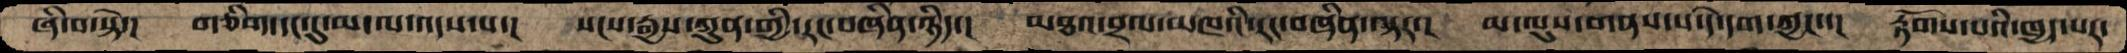ཞི་བ་སྟེ་།  གཅིག་དང་དུ་མ་ལ་འདས་པ་།  སངས་རྒྱས་ཀུན་གྱི་རང་བཞིན་ཉིད་།  མཐའ་བྲལ་མཁའི་རང་བཞིན་ལྟར་།  མ་ལུས་གནས་པ་དེ་དག་ཀྱང་་།  རྟོགས་པའི་ཁྱད་པར་
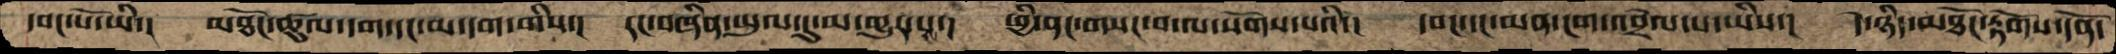དབང་པོ་ཡི་། མཐོང་ཚུལ་དག་དང་མ་དག་གིས་།  རང་བཞིན་ཡུལ་དུ་མ་གྱུར་པས་། ཕྱི་ནང་གསང་བ་ལ་སོགས་པའི་། དབང་དང་མན་ངག་འབྲེལ་པ་ཡིས་། དེ་ཉིད་མཐོང་རྟོགས་དོན་
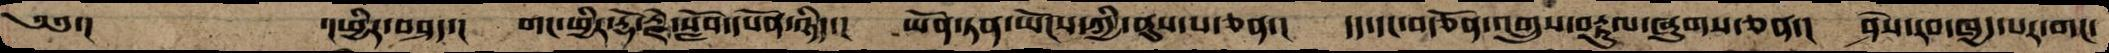༄༅་།         ་།ཕྱིར་བཤད་།  གང་ཕྱིར་རྡོ་རྗེ་སློབ་དཔོན་ཉིད་།  ཡོན་ཏན་ཡོངས་ཀྱི་ནུས་པ་ཅན་།  དད་དང་བརྩོན་འགྲུས་བརྟུལ་ཞུགས་ཅན་།  ཤེས་རབ་ཁྱད་པར་གང་
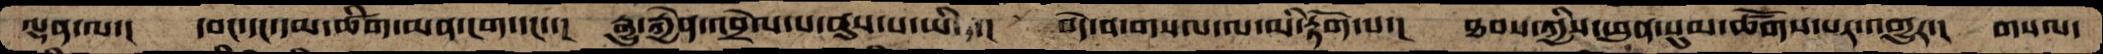ལྡན་ལ་།  དབང་དང་དམ་ཚིག་མན་ངག་དང་་།  རྒྱུ་རྐྱེན་འབྲེལ་པ་ནུས་པ་ཡི་།  བདེ་བ་གསལ་ལ་མི་རྟོག་པ་།  ཐབས་ཀྱིས་ཕུན་སུམ་ཚོགས་པར་འགྱུར་།  གསལ་
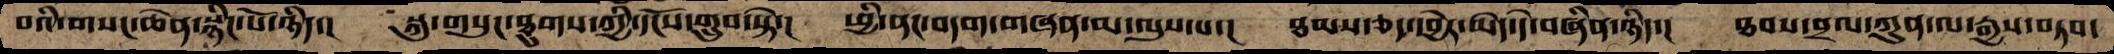བའི་གསང་ཆེན་སྙིང་པོ་ཉིད་།  སྐུ་གསུང་ཐུགས་ཀྱི་དངོས་གྲུབ་སྟེ་།  ཕྱི་ནང་བདག་གཞན་མ་ལུས་པ་།  ཐམས་ཅད་དབྱེར་མེད་དེ་བཞིན་ཉིད་།  ཐབས་བྲལ་ཀུན་ལ་རྒྱས་བཏབ་
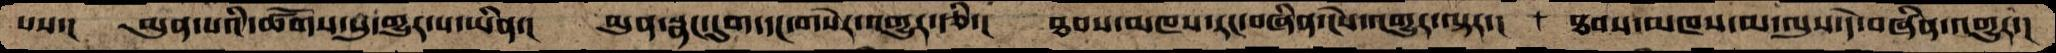པས་།  མུན་པའི་ཚོགས་སུ་གྱུར་པ་ཡིན་།  མུན་སྣང་དུག་དང་དགསེར་འགྱུར་རྩི་།  ཐབས་མཁས་རང་བཞིན་ངེས་འགྱུར་ལྟར་།  ཐབས་མཁས་མ་ལུས་དེ་བཞིན་འགྱུར་།
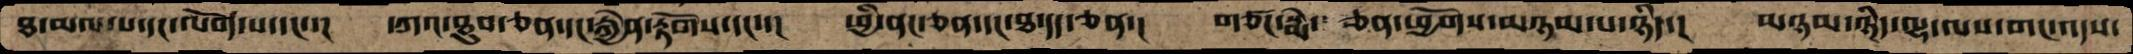ཐ་མལ་པ་དང་ལོག་པ་དང་་།   དཀའ་ཐུབ་ཅན་དང་རྐྱེན་རྟོགས་དང་་།  ཕྱི་ནང་ཅན་དང་ཐ་དད་ཅན་།  གཙང་སྨེ་ ཅན་ཕྱོགས་མཉམ་པ་ཉིད་།  མཉམ་ཉིད་ལྷ་ལས་གང་འདས་
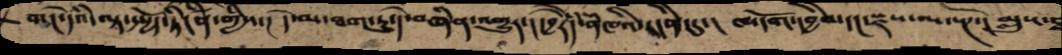གང་དེའི་ལྟ་སྤྱོད་ཏིངེཛིན་གྱིས་།  དེ་མ་ཐག་ཏུ་དེ་བཞིན་འགྱུར་།  དབྱེརེད་ནཾཁའི་རངནི་དུ་།  ཁ་དོག་དབྱིབ་དང་སྫས་ལ་སྤོ་།  མླུས་ཐ
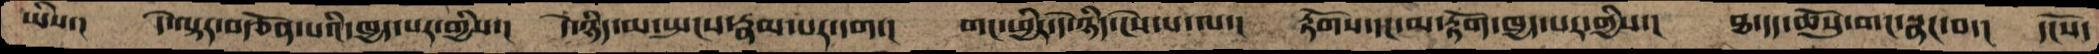ཡིས་།   དེ་ལྟར་བརྩོན་པའི་ཁྱད་པར་གྱིས་།  དེ་ཉིད་མ་སྤངས་རྣམ་པར་དག་།  གང་ཕྱིར་དེ་ཉིད་ངེས་པ་ལ་།  རྟོགས་དང་མ་རྟོག་ཁྱད་པར་གྱིས་།  ཐ་དད་ཆོསུ་གང་སྣང་བ་།  དངོས་
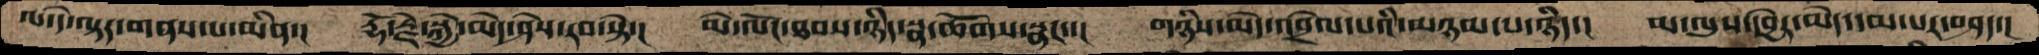ལ་དེ་ལྟར་གནས་པ་མིན་།   རྡོ་རྗེ་སྐྱེ་མེད་ཤེས་རབ་སྟེ་།   མེ་ལོང་ཐབས་ཉིད་སྣ་ཚོགས་སྣང་་།  གཉིས་མེད་འབྲེལ་པའི་མཉམ་པ་ཉིད་།   མ་ལུས་དབྱེར་མེ་དམ་པར་བཤད་།
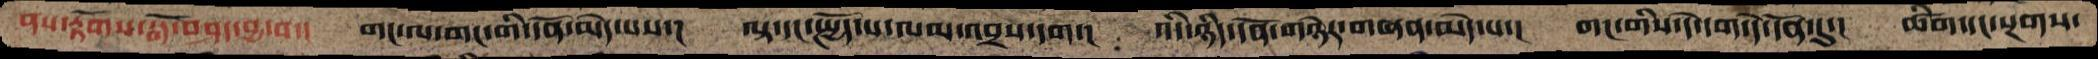ནས་རྟོགས་སྒོ་བཤད་བྱ་བ་།  གང་ལ་གང་གི་དོན་མེད་པས་།  ལྟ་དང་སྤྱོད་པ་ལམ་འབྲས་དག་།  འདི་ཉིད་དོན་གཉེར་གཞན་མེད་པ་།   གང་གིས་དེ་དག་དེ་དོན་དུ་།  ཚིག་དང་སྔགས་
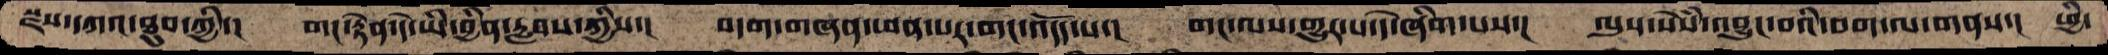སྫས་དཀའ་ཐུབ་ཀྱི་།  གང་རྟེན་དེ་ཡི་བྱིན་རླབས་ཀྱིས་།  བདག་གཞན་ཕན་པར་གང་འདོད་པ་།   གང་ལ་གྱུར་པ་དེ་ཞིག་པས་།   ལུས་སེསཾ་འབྱུང་བའི་བག་ལ་གནས་།  ཕྱི་
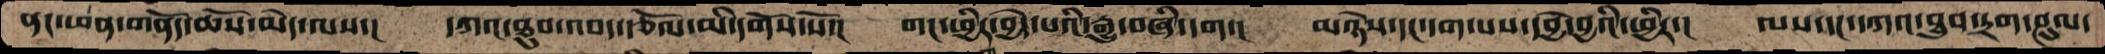ནང་ཕན་གནོད་ཆོས་མདེ་ལས་།   དཀའ་ཐུབ་འབད་རྩོལ་མི་དགོས་སོ་།  གང་ཕྱིར་བྱེད་པའི་རྒྱུ་བཞི་དག་།  མཉེས་དང་དག་པས་དབྱེ་བྱའི་ཕྱིར་།  ལས་དང་དཀའ་ཐུབ་དྲག་ཤུལ་
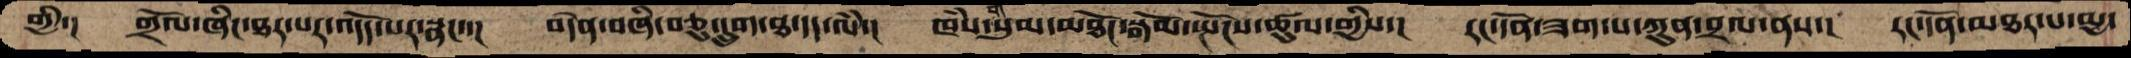གྱི་།  གྲོལ་ཞིང་ཐར་པར་འདོད་པར་སྣང་་།  བདེན་བཞི་བཅུ་དྲུག་ཐ་དད་ལཾ་།  ཁཾས་གསུཾ་མཐོང་སྒོམ་སྤོངས་ཚུལ་གྱིས་།  རང་དོན་ཟག་པ་ཀུན་བྲལ་ནས་།  རང་དོན་མཐར་པ་མྱ་
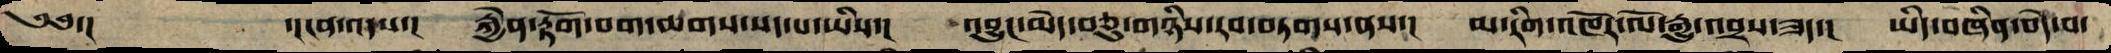༄༅་།    ་།ངན་འདས་།  རྐྱེན་རྟོག་བག་ཆགས་སད་པ་ཡིས་།  འབྱུང་མེད་བཅུ་གཉིས་རབ་བཏགས་ནས་།  མ་རིག་འཁོར་ལོ་རྒྱུ་འབྲས་ཟད་།  ཡིད་བཞིན་བདེ་བ་
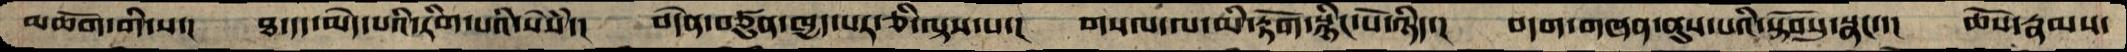མཆོག་གི་ས་།  ཐ་དད་མེད་པའི་རིག་པའི་སེཾས་།  བདེན་བཙུན་ཁྱད་པར་ཅི་ལྟས་པ་།  གསལ་ལ་མི་རྟོག་སྙིང་པོ་ཉིད་།  བདག་གཞན་ནུས་པའི་སྟོབསུ་སྣང་་།  ཆོས་རྣམས་
